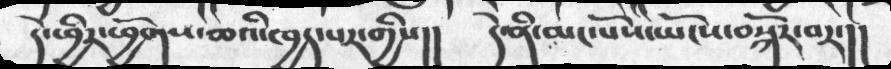དེ་ཕྱིར་ཕྱོགས་ཆའི་ཁྱད་པར་གྱིས།། དེ་ནི་མང་པོས་ཡོངས་བསྐོར་བར་།།
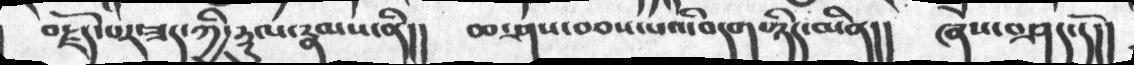བརྗོད་པར་ཟད་ཀྱི་རྡུལ་རྣམས་ནི།། ཆ་ཤས་བཅས་པའི་བདག་ཉིད་མིན།། ཞེས་བཤད་དོ།།
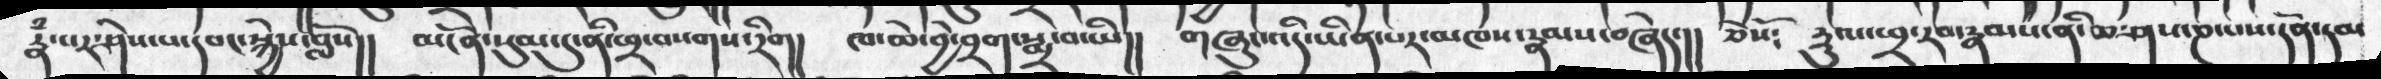རྣཾ་པར་ཤེས་པ་དབང་སྐྱེས་བློས།།  མངོན་སུམ་དུ་ནི་ཕྲ་བསགས་རིག།  ཁ་ཆེ་བྱེ་བྲག་སྨྲ་བ་ཡི།།  གཞུང་འདི་ཡིན་པར་མཁས་རྣམས་བཞེད་།།  ཅེསོ༴ རྡུལ་ཕྲ་རབ་རྣམས་ནི་ཆ་ཤས་ཎ་པས་དོན་དམ
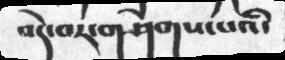བདེ་བར་གཤེགས་པའི་
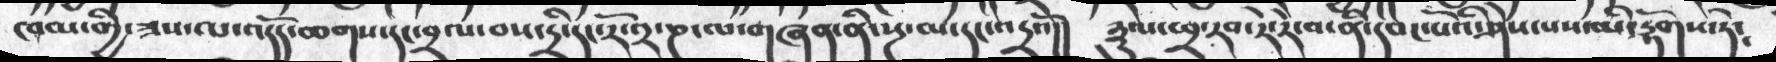ཁམ་གྱི་ཟས་ལ་འདོད་ཆགས་དང་བྲལ་བས་དྲི་དང་རོ་༢་ཎ་ལ་གཞན་ནི་སྔ་མ་དང་འདྲའོ།། རྡུལ་ཕྲ་རབ་རེ་རེ་བ་ནི་དབང་པོའི་ཤེས་པས་མི་རྟོགས་ཏེ༴
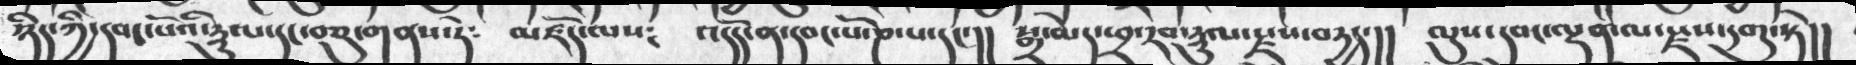ཉིད་ཀྱི་དབང་པོའི་རྡུལ་དང་བཅུ་གནས་ཏེ༴  མཛོད་ལས༴  འདོད་ན་དབང་པོ་ཎ་པ་དང་།།  སྒྲ་མེད་ཕྲ་རབ་རྡུལ་རྫས་བདྱད་།།  ལུས་དབང་ལྡན་ལ་རྫས་དགུ་སྟེ།།
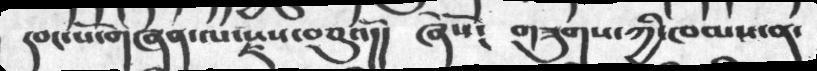དབང་པོ་གཞན་ལ་རྫས་བཅུའོ།།  ཞེསོ༴  གཟུགས་ཀྱི་ཁམས་ན་
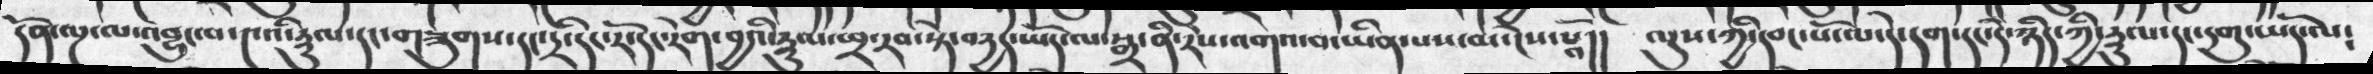དོན་ལྔ་ལ་འབྱུང་བ་༤འི་རྡུལ་དང་གཟུགས་དང་དྲི་དང་རོ་དང་རེག་བྱའི་རྡུལ་ཕྲ་རབ་སྟེ་བརྱད་ཡོད་ལ་སྒྲ་ནི་རེས་འགའ་བ་ཡིན་པས་མ་ངེས་པའོ།།  ལུས་ཀྱི་དབང་པོ་ལ་དེ་དག་དང་དེ་ཉིད་ཀྱི་རྡུལ་དང་དགུ་ཡོད་ལ༴
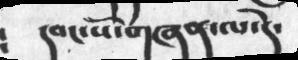དབང་པོ་གཞན་ལ་དེ་
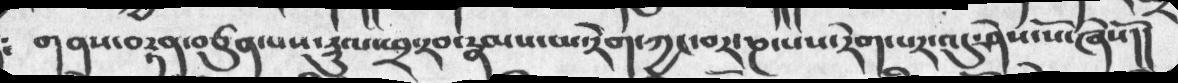གནས་བརྟན་བཙུན་པས་སྡུལ་ཕྲ་རབ་རྣམས་པ་རེག་ཀྱང་བར་ཎ་པས་རེག་པར་འདུ་ཤེས་པོ་ཞེསོ།།
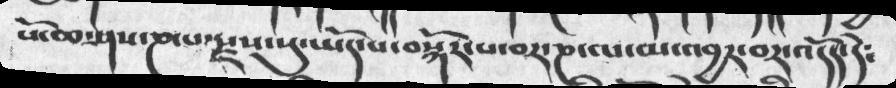པོ་ཆ་ཤས་ཎ་པ་རྫས་སུ་ཡོད་པ་བསྐོར་པ་བར་ཎ་ལ་མ་འབྱར་བར་འདོད་དེ༴
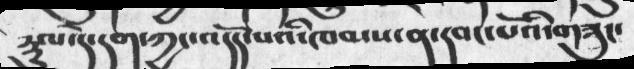སྡུལ་དེ་དག་ཀྱང་འདོད་པའི་ཁམས་ན་དབང་པོའི་གཟུང་
